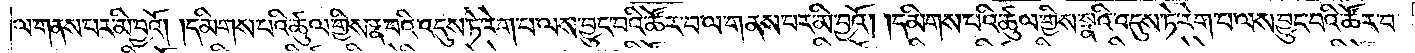ལ་གནས་པར་མི་བྱའོ། །དམིགས་པའི་ཚུལ་གྱིས་རྣ་བའི་འདུས་ཏེ་རེག་པ་ལས་བྱུང་བའི་ཚོར་བ་ལ་གནས་པར་མི་བྱའོ། །དམིགས་པའི་ཚུལ་གྱིས་སྣའི་འདུས་ཏེ་རེག་པ་ལས་བྱུང་བའི་ཚོར་བ་
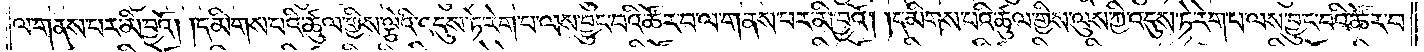ལ་གནས་པར་མི་བྱའོ། །དམིགས་པའི་ཚུལ་གྱིས་ལྕེའི་འདུས་ཏེ་རེག་པ་ལས་བྱུང་བའི་ཚོར་བ་ལ་གནས་པར་མི་བྱའོ། །དམིགས་པའི་ཚུལ་གྱིས་ལུས་ཀྱི་འདུས་ཏེ་རེག་པ་ལས་བྱུང་བའི་ཚོར་བ་
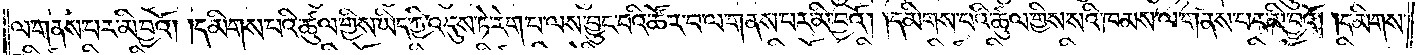ལ་གནས་པར་མི་བྱའོ། །དམིགས་པའི་ཚུལ་གྱིས་ཡིད་ཀྱི་འདུས་ཏེ་རེག་པ་ལས་བྱུང་བའི་ཚོར་བ་ལ་གནས་པར་མི་བྱའོ། །དམིགས་པའི་ཚུལ་གྱིས་སའི་ཁམས་ལ་གནས་པར་མི་བྱའོ། །དམིགས་
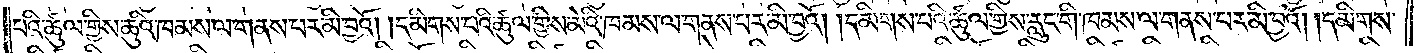པའི་ཚུལ་གྱིས་ཆུའི་ཁམས་ལ་གནས་པར་མི་བྱའོ། །དམིགས་པའི་ཚུལ་གྱིས་མེའི་ཁམས་ལ་གནས་པར་མི་བྱའོ། །དམིགས་པའི་ཚུལ་གྱིས་རླུང་གི་ཁམས་ལ་གནས་པར་མི་བྱའོ། །དམིགས་
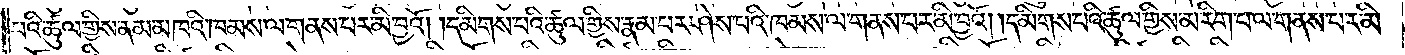པའི་ཚུལ་གྱིས་ནམ་མཁའི་ཁམས་ལ་གནས་པར་མི་བྱའོ། །དམིགས་པའི་ཚུལ་གྱིས་རྣམ་པར་ཤེས་པའི་ཁམས་ལ་གནས་པར་མི་བྱའོ། །དམིགས་པའི་ཚུལ་གྱིས་མ་རིག་པ་ལ་གནས་པར་མི་
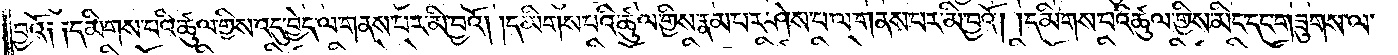བྱའོ༏ ༏དམིགས་པའི་ཚུལ་གྱིས་འདུ་བྱེད་ལ་གནས་པར་མི་བྱའོ། །དམིགས་པའི་ཚུལ་གྱིས་རྣམ་པར་ཤེས་པ་ལ་གནས་པར་མི་བྱའོ། །དམིགས་པའི་ཚུལ་གྱིས་མིང་དང་གཟུགས་ལ་
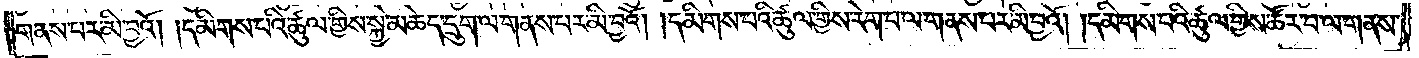གནས་པར་མི་བྱའོ། །དམིགས་པའི་ཚུལ་གྱིས་སྐྱེ་མཆེད་དྲུག་ལ་གནས་པར་མི་བྱའོ། །དམིགས་པའི་ཚུལ་གྱིས་རེག་པ་ལ་གནས་པར་མི་བྱའོ། །དམིགས་པའི་ཚུལ་གྱིས་ཚོར་བ་ལ་གནས་
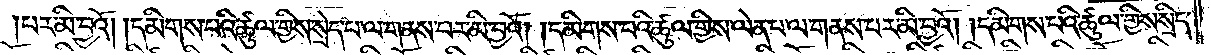པར་མི་བྱའོ། །དམིགས་པའི་ཚུལ་གྱིས་སྲེད་པ་ལ་གནས་པར་མི་བྱའོ། །དམིགས་པའི་ཚུལ་གྱིས་ལེན་པ་ལ་གནས་པར་མི་བྱའོ། །དམིགས་པའི་ཚུལ་གྱིས་སྲིད་
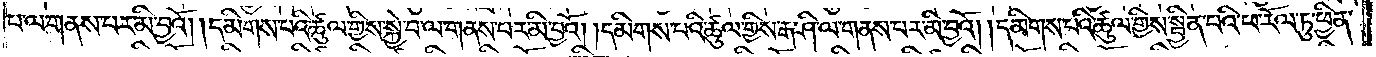པ་ལ་གནས་པར་མི་བྱའོ། །དམིགས་པའི་ཚུལ་གྱིས་སྐྱེ་བ་ལ་གནས་པར་མི་བྱའོ། །དམིགས་པའི་ཚུལ་གྱིས་རྒ་ཤི་ལ་གནས་པར་མི་བྱའོ། །དམིགས་པའི་ཚུལ་གྱིས་སྦྱིན་པའི་ཕ་རོལ་ཏུ་ཕྱིན་
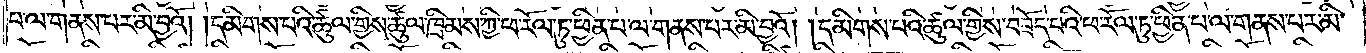པ་ལ་གནས་པར་མི་བྱའོ། །དམིགས་པའི་ཚུལ་གྱིས་ཚུལ་ཁྲིམས་ཀྱི་ཕ་རོལ་ཏུ་ཕྱིན་པ་ལ་གནས་པར་མི་བྱའོ། །དམིགས་པའི་ཚུལ་གྱིས་བཟོད་པའི་ཕ་རོལ་ཏུ་ཕྱིན་པ་ལ་གནས་པར་མི་
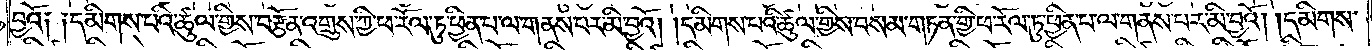བྱའོ༏ ༏དམིགས་པའི་ཚུལ་གྱིས་བརྩོན་འགྲུས་ཀྱི་ཕ་རོལ་ཏུ་ཕྱིན་པ་ལ་གནས་པར་མི་བྱའོ། །དམིགས་པའི་ཚུལ་གྱིས་བསམ་གཏན་གྱི་ཕ་རོལ་ཏུ་ཕྱིན་པ་ལ་གནས་པར་མི་བྱའོ། །དམིགས་
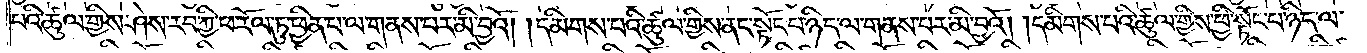པའི་ཚུལ་གྱིས་ཤེས་རབ་ཀྱི་ཕ་རོལ་ཏུ་ཕྱིན་པ་ལ་གནས་པར་མི་བྱའོ། །དམིགས་པའི་ཚུལ་གྱིས་ནང་སྟོང་པ་ཉིད་ལ་གནས་པར་མི་བྱའོ། །དམིགས་པའི་ཚུལ་གྱིས་ཕྱི་སྟོང་པ་ཉིད་ལ་
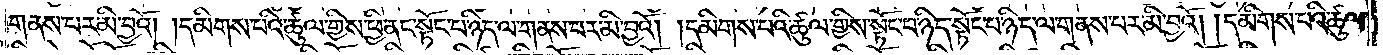གནས་པར་མི་བྱའོ། །དམིགས་པའི་ཚུལ་གྱིས་ཕྱི་ནང་སྟོང་པ་ཉིད་ལ་གནས་པར་མི་བྱའོ། །དམིགས་པའི་ཚུལ་གྱིས་སྟོང་པ་ཉིད་སྟོང་པ་ཉིད་ལ་གནས་པར་མི་བྱའོ། །དམིགས་པའི་ཚུལ་
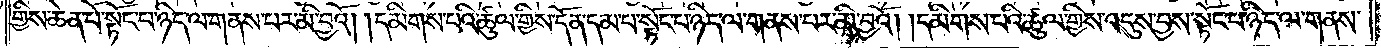གྱིས་ཆེན་པོ་སྟོང་པ་ཉིད་ལ་གནས་པར་མི་བྱའོ། །དམིགས་པའི་ཚུལ་གྱིས་དོན་དམ་པ་སྟོང་པ་ཉིད་ལ་གནས་པར་མི་བྱའོ། །དམིགས་པའི་ཚུལ་གྱིས་འདུས་བྱས་སྟོང་པ་ཉིད་ལ་གནས་
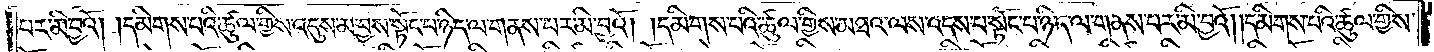པར་མི་བྱའོ། །དམིགས་པའི་ཚུལ་གྱིས་འདུས་མ་བྱས་སྟོང་པ་ཉིད་ལ་གནས་པར་མི་བྱའོ། །དམིགས་པའི་ཚུལ་གྱིས་མཐའ་ལས་འདས་པ་སྟོང་པ་ཉིད་ལ་གནས་པར་མི་བྱའོ། །དམིགས་པའི་ཚུལ་གྱིས་
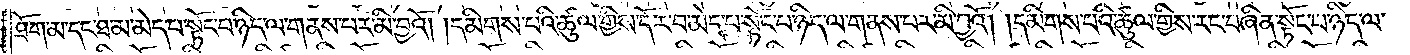ཐོག་མ་དང་ཐ་མ་མེད་པ་སྟོང་པ་ཉིད་ལ་གནས་པར་མི་བྱའོ། །དམིགས་པའི་ཚུལ་གྱིས་དོར་བ་མེད་པ་སྟོང་པ་ཉིད་ལ་གནས་པར་མི་བྱའོ། །དམིགས་པའི་ཚུལ་གྱིས་རང་བཞིན་སྟོང་པ་ཉིད་ལ་
